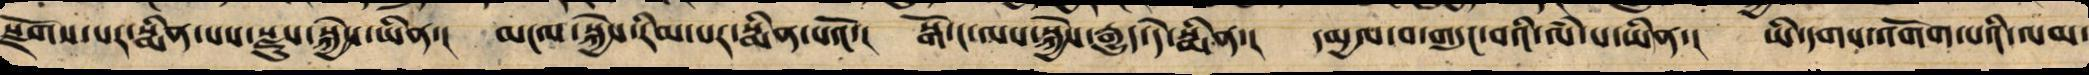སྫོགས་པར་སྨིན་པས་སྫུས་སྐྱེས་ཡིན་། མངལ་སྐྱེས་རིམ་པར་སྨིན་པའོ་། སྒོ་ང་ལས་སྐྱེས་རྒྱུད་དེ་སྨིན་། དམྱལ་བ་གདུང་བའི་ལཾ་པ་ཡིན་། ཡི་དགས་འགོག་པའི་ལམ་
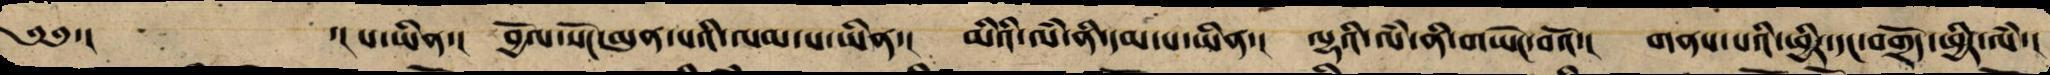༄༅་། ་། པ་ཡིན་། བྱོལ་སོང་མུན་པའི་ལམ་པ་ཡིན་། མིའི་ལཾ་ནི་དམ་པ་ཡིན་། ལྷའི་ལཾ་ནི་གཡེང་བའོ་། གནས་པའི་ཕྱིར་དང་བགྲོད་ཕྱིར་ལཾ་།
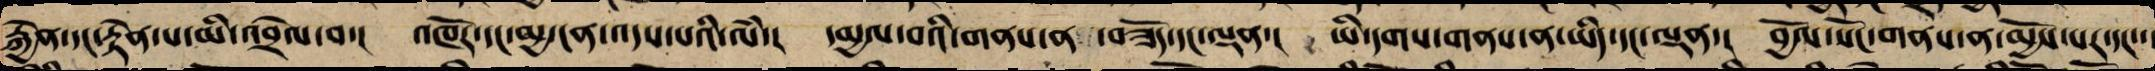རྐྱེན་དང་རྟེན་པ་མི་འབྲལ་བ་། འཁོར་དང་མྱ་ངན་འདས་པའི་ལཾ་། དམྱལ་བའི་གནས་ན ་བཟོད་དང་ལྡན་། ཡི་དགས་གནས་ན་ཡིད་དང་ལྡན་། བྱོལ་སོང་གནས་ན་མྱོས་པ་དང་་།
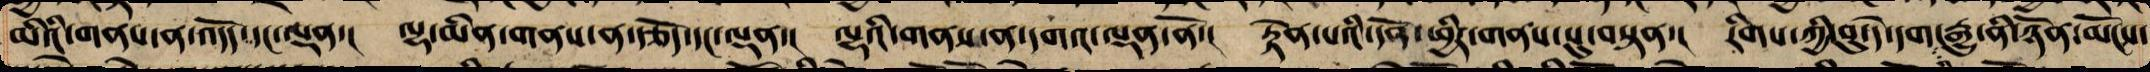མིའི་གནས་ན་འདོད་དང་ལྡན་། ལྷ་མིན་གནས་ན་རྩོད་དང་ལྡན་། ལྷའི་གནས་ན་དགའ་ལྡན་ནོ་། རྟེན་པའི་དོན་ཕྱིར་གནས་སུ་བསྟན་། རིགས་ཀྱི་བུ་དེ་དག་རྒྱུ་ནི་ཉོན་མོངས་
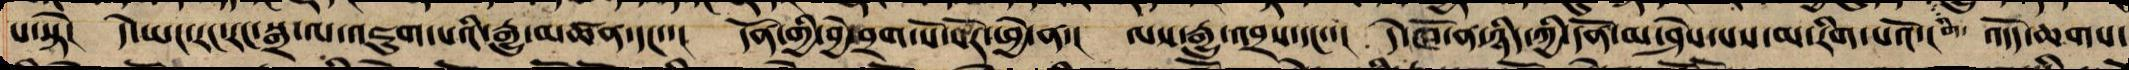པ་སྟེ་། དེ་ཡང་རང་རང་སྒྲ་ལ་འཇུག་པའི་རྒྱུ་མཚན་དང་་། དོན་གྱི་བྱེ་བྲག་སོ་སོར་ཕྱེ་ན་། ལས་རྒྱུ་འབྲས་དང་་། དེ་ཁོ་ན་ཉིད་ཀྱི་དོན་མ་ཤེས་པས་མ་རིག་པའོ་། འདོད་ཆགས་
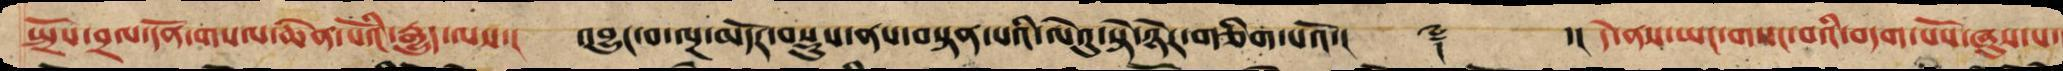སྤྲོས་བྲལ་དོན་གསལ་ཆེན་པོའི་རྒྱུད་ལས་། འབྱུང་བ་ལྔ་མདོར་བསྡུས་ནས་བསྟན་པའི་ལེའུ་སྟེ་ཉེར་གཅིག་པའོ་།། ༈ ་། དེ་ནས་ཡང་གསང་བའི་བདག་པོས་ཞུས་པ་
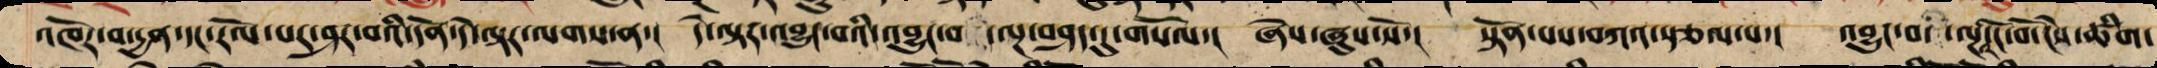འཁོར་བ་དྱན་དང་རོལ་པར་ཤར་བའི་དོན་དེ་ལྟར་ལགས་ན་། དེ་ལྟར་འབྱུང་བའི་འབྱུང་ བ་ལྔ་བཤད་དུ་གསོལ་། ཞེས་ཞུས་སོ་། སྟོན་པས་བཀའ་སྩལ་པ་། འབྱུང་བ་ ་ལྔ་ངོ་བོ་ངེས་ཚིག་་
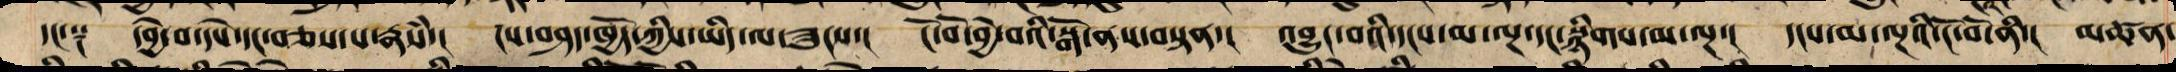དང་༑ དབྱེ་བ་དཔེ་དང་བཅས་པ་རྣཾས་། ངས་བཤད་ཁྱོད་ཀྱིས་ཡིད་ལ་ཟུངས་། ངོ་བོ་བྱེ་བའི་སྒོ་ནས་བསྟན་། འབྱུང་བའི་དངས་མ་ལྔ་དང་སྙིགས་མ་ལྔ་། དངས་མ་ལྔའི་ངོ་བོ་ནི་། མཚན་
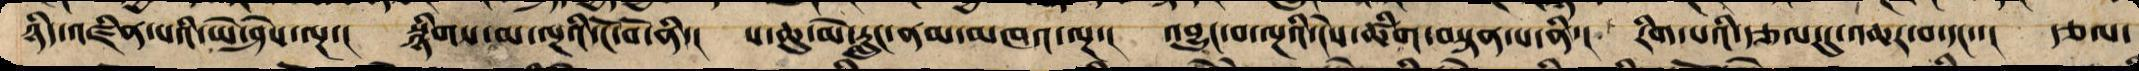ཉིད་འཛིན་པའི་ཡེ་ཤེས་ལྔ་། སྙིགས་མ་ལྔའི་ངོ་བོ་ནི་། ས་ཆུ་མེ་རླུང་ནམ་མཁའ་ལྔ་། འབྱུང་བ་ལྔའི་ངེས་ཚིག་བསྟན་པ་ནི་། རིག་པའི་རྩལ་དུ་འཆར་བ་དང་་། རྩལ་
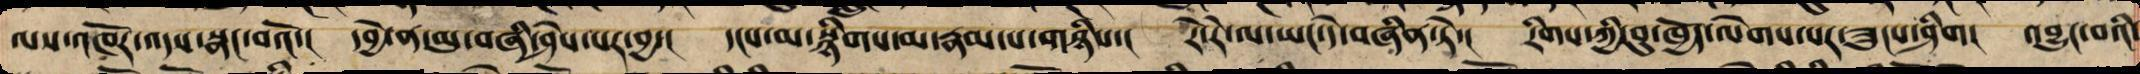ལས་འཁོར་འདས་སྣང་བའོ་། དབྱེ་ན་མུ་བཞི་ཤེས་པར་བྱ་། དངས་མ་སྙིགས་མ་རྣམ་པ་གཉིས་། རེ་རེ་ལའང་དེ་བཞིན་ཏེ་། རིགས་ཀྱི་བུ་ཁྱོད་ལེགས་པར་ཟུངས་ཤིག། འབྱུང་བའི་
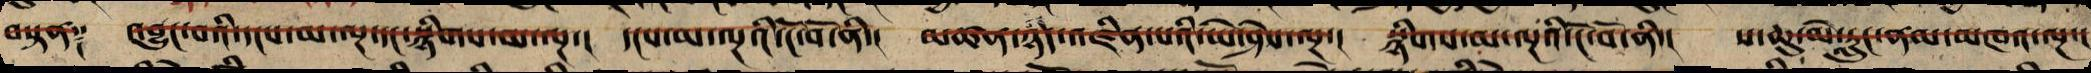བསྟན༑ འབྱུང་བའི་དངས་མ་ལྔ་དང་སྙིགས་མ་ལྔ་། དངས་མ་ལྔའི་ངོ་བོ་ནི་། མཚན་ཉིད་འཛིན་པའི་ཡེ་ཤེས་ལྔ་། སྙིགས་མ་ལྔའི་ངོ་བོ་ནི་། ས་ཆུ་མེ་རླུང་ནམ་མཁའ་ལྔ་།
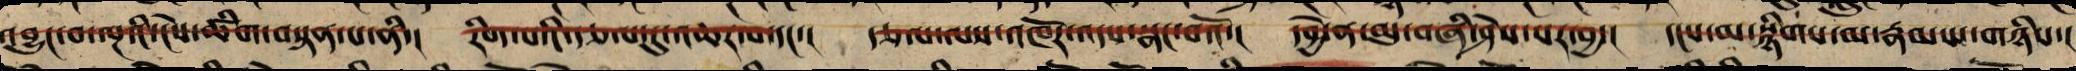འབྱུང་བ་ལྔའི་ངེས་ཚིག་བསྟན་པ་ནི་། རིག་པའི་རྩལ་དུ་འཆར་བ་དང་། རྩལ་ལས་འཁོར་འདས་སྣང་བའོ་། དབྱེ་ན་མུ་བཞི་ཤེས་པར་བྱ་། དངས་མ་སྙིགས་མ་རྣམ་པ་གཉིས་།
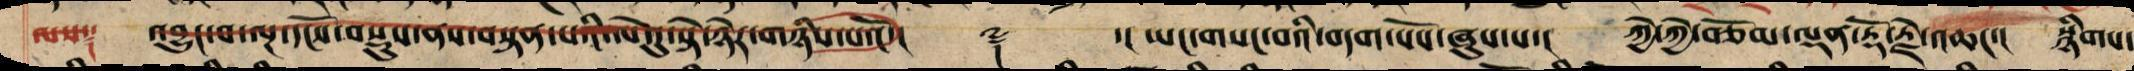ལས༑ འབྱུང་བ་ལྔ་དངོས་བསྡུས་ནས་བསྟན་པའི་ལེའུ་སྟེ་ཉེར་གཉིས་པའོ་། ༈ ་། ཡང་གསང་བའི་བདག་པོས་ཞུས་པ་། ཀྱེ་ཀྱེ་བཅོམ་ལྡན་རྡོ་རྗེ་འཆང་། སྙིགས་
